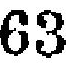63
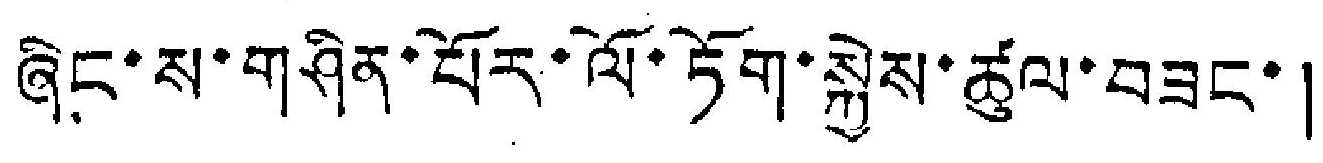ཞིང་ས་གཤིན་པོར་ལོ་ཏོག་སྐྱེས་ཚུལ་བཟང་།
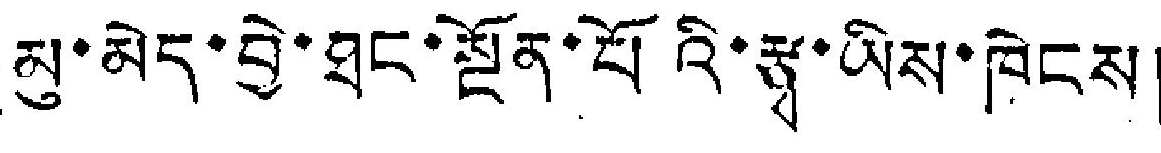མུ་མེད་བྱེ་ཐང་སྔོན་པོའི་རྩྭ་ཡིས་ཁེངས།
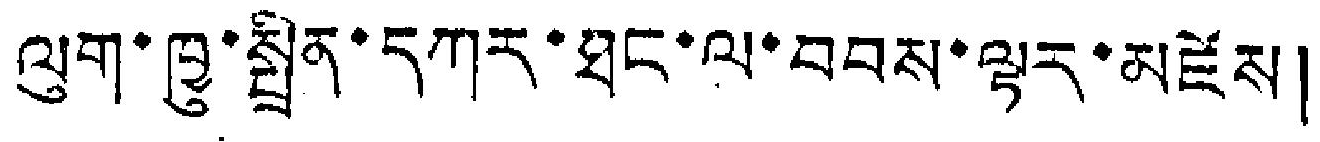ལུག་ཁྱུ་སྤྲིན་དཀར་ཐང་ལ་བབས་ལྟར་མཛེས།
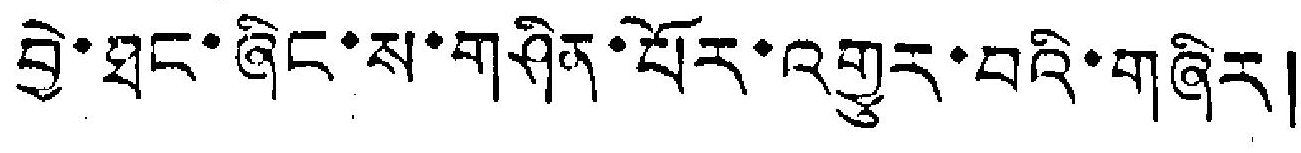བྱེ་ཐང་ཞིང་ས་གཤིན་པོར་འགྱུར་བའི་གཞིར།
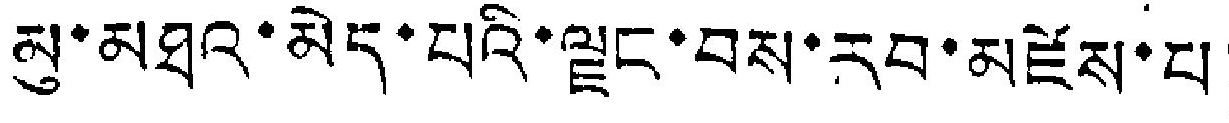མུ་མཐའ་མེད་པའི་ལྗང་བས་རབ་མཛེས་པ།
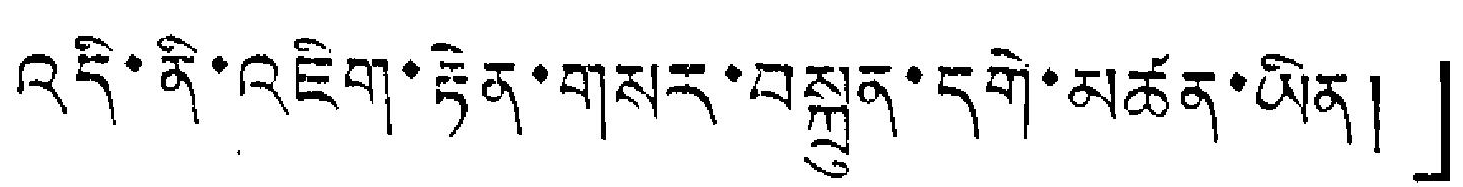འདི་ནི་འཇིག་རྟེན་གསར་བསྐྲུན་དགེ་མཚན་ཡིན།」
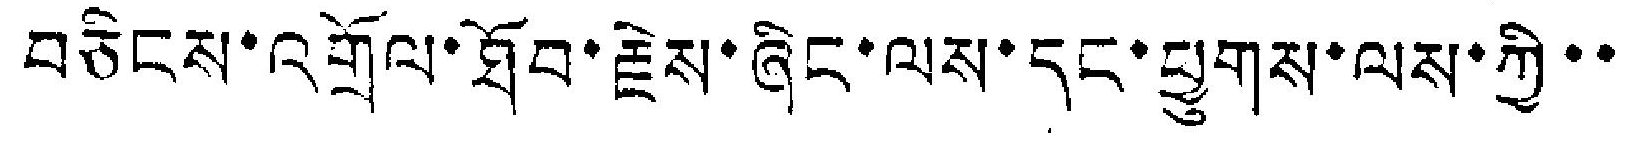བཅིངས་འགྲོལ་ཐོབ་རྗེས་ཞིང་ལས་དང་ཕྱུགས་ལས་ཀྱི་་
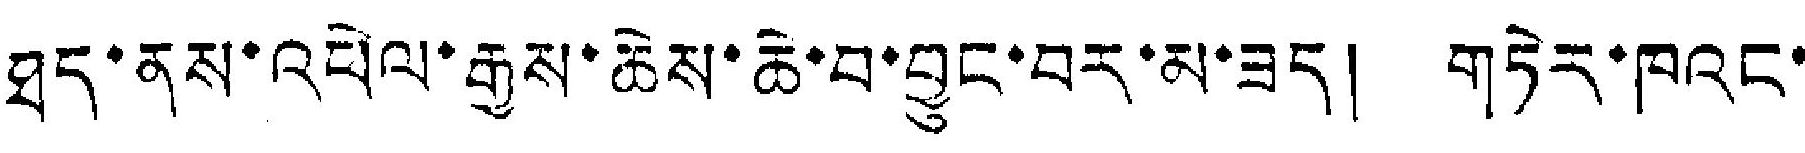ཐད་ནས་འཕེལ་རྒྱས་ཆེས་ཆེ་བ་བྱུང་བར་མ་ཟད། གཏེར་ཁའང་
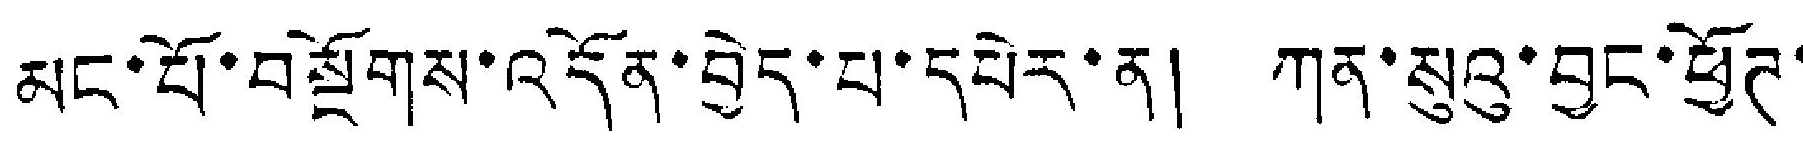མང་པོ་བསྔོགས་འདོན་བྱེད་པ་དཔེར་ན། ཀན་སུའུ་བྱང་ཕྱོཊ་
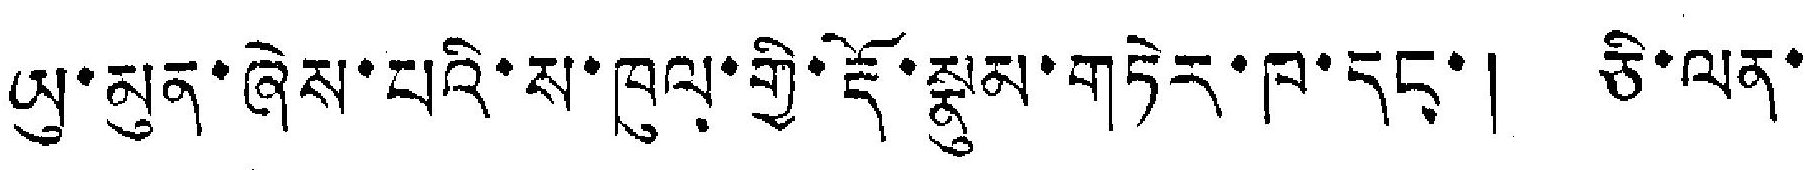ཡུ་མུན་ཞེས་པའི་ས་ཁུལ་གྱི་རྡོ་སྣུམ་གཏེར་ཁ་དང་། ཅི་ལན་
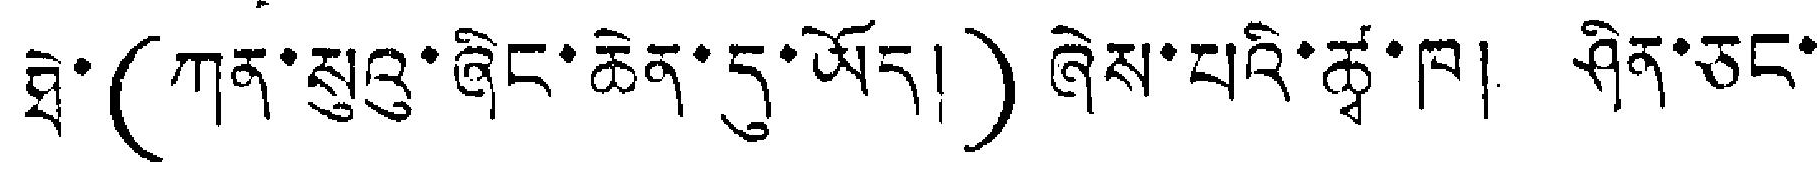ཐེ་(ཀན་སུའུ་ཞིང་ཆེན་དུ་ཡོད།)ཞེས་པའི་ཚྭ་ཁ། ཤིན་ཅང་
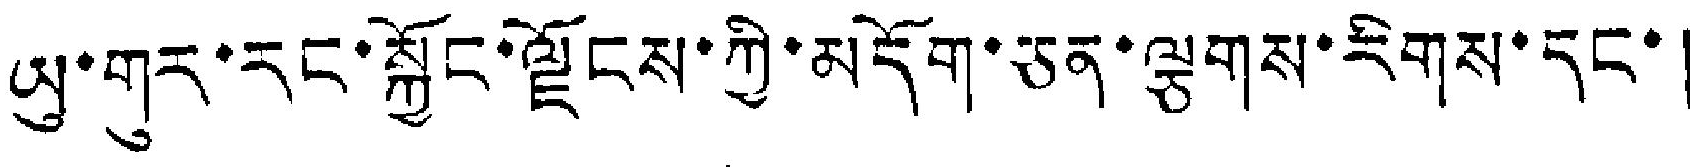ཡུ་གུར་རང་སྐྱོང་ལྗོངས་ཀྱི་མདོག་ཅན་ལྕགས་རིགས་དང་།
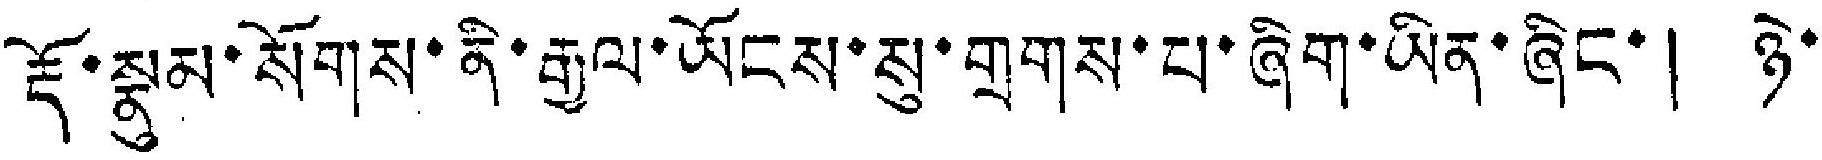རྡོ་སྣུམ་སོགས་ནི་རྒྱལ་ཡོངས་སུ་གྲགས་པ་ཞིག་ཡིན་ཞིང་། ཉེ་
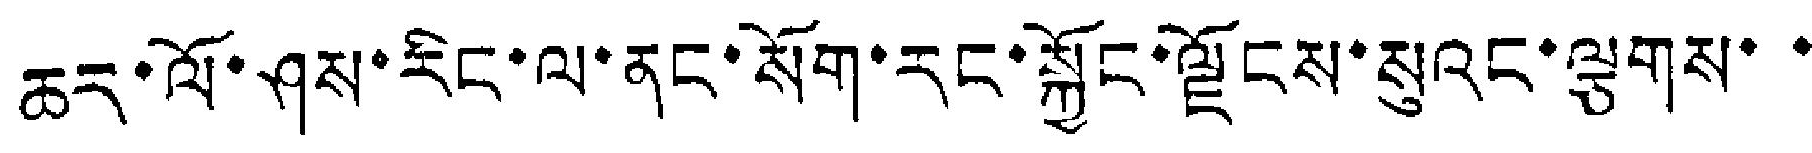ཆར་ལོ་ཤས་རིང་ལ་ནང་སོག་རང་སྐྱོང་ལྗོངས་སུའང་ལྕགས་་་
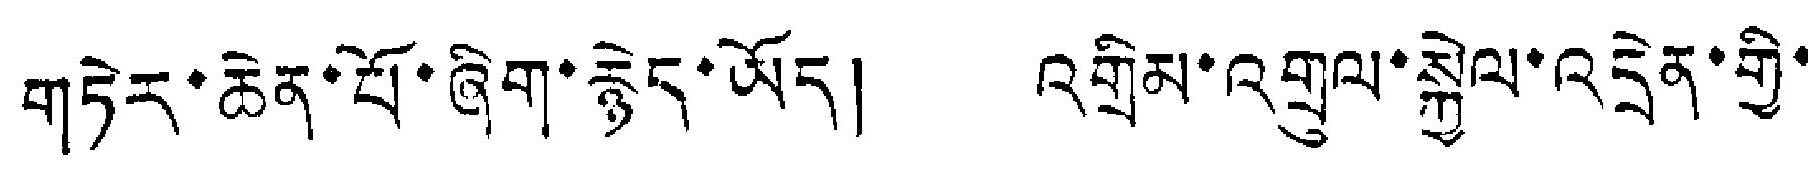གཏེར་ཆེན་པོ་ཞིག་རྙེད་ཡོད། འགྲིམ་འགྲུལ་སྐྱེལ་འདྲེན་གྱི་
